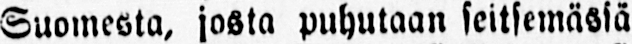Suomesta, josta puhutaan seitsemässä
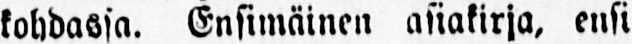kohdassa. Ensimäinen asiakirja, ensi
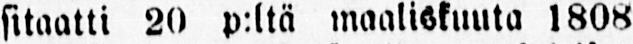sitaatti 20 p:ltä maaliskuuta 1808
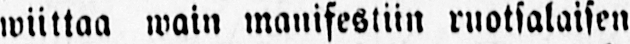wiittaa wain manifestiin ruotsalaisen
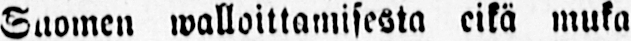Suomen walloittamisesta eikä muka
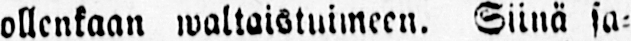ollenkaan waltaistuimeen. Siinä sa-
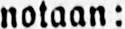notaan:
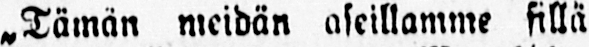"Tämän meidän aseillamme sillä
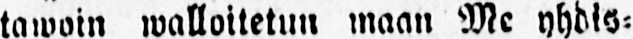tawain walloitetun maan Me yhdis-
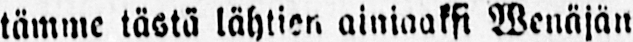tämme tästä lähtien ainiaaksi Wenäjän
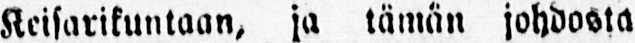Keisarikuntaan, ja tämän johdosta
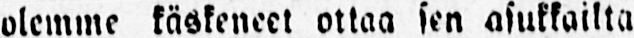olemme käskeneet ottaa sen asukkailta
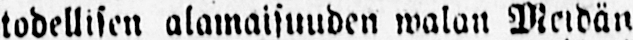todellisen alamaisuuden walan Meidän
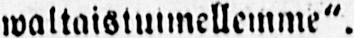waltaistuimellemme".
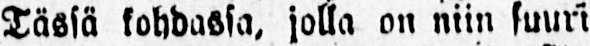Tässä kohdassa, jolla on niin suuri
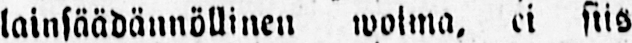lainsäädännöllinen wolma, ei siis
